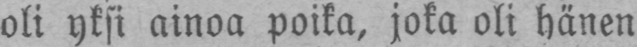oli yksi ainoa poika, joka oli hänen
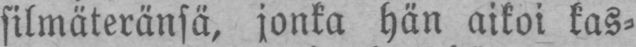silmäteränsä, jonka hän aikoi kas-
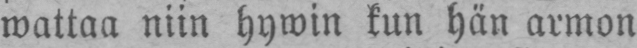wattaa niin hywin kun hän armon
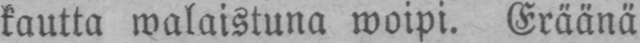kautta walaistuna woipi. Eräänä
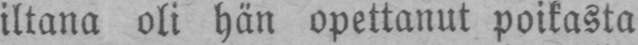iltana oli hän opettanut poikasta
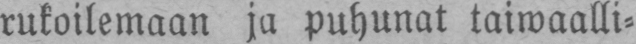rukoilemaan ja puhunut taiwaalli-
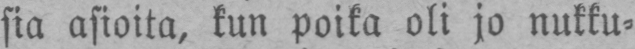sia asioita, kun poika oli jo nukku-
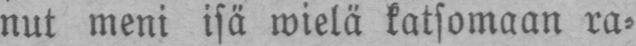nut meni isä wielä katsomaan ra-
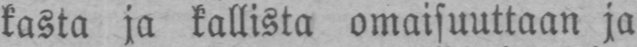kasta ja kallista omaisuuttaan ja
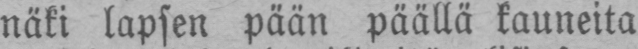näki lapsen pään päällä kauneita
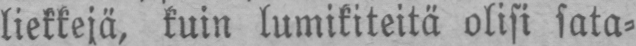liekkejä, kuin lumikiteitä olisi sata-
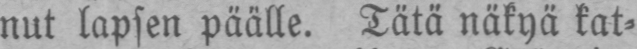nut lapsen päälle. Tätä näkyä kat-
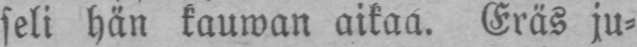seli hän kauwan aikaa. Eräs ju-
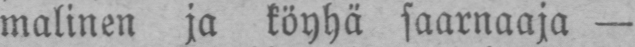malinen ja köyhä saarnaaja —
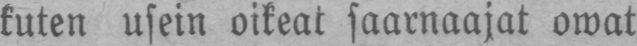kuten usein oikeat saarnaajat owat
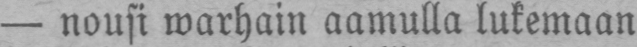— nousi warhain aamulla lukemaan
